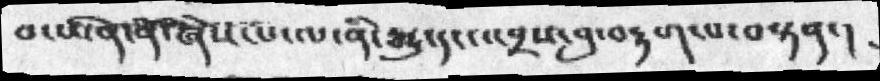པ་ཡིན་ནོ་ཞེས་པ་ལ་ནི་རྒྱུ་དང་འབྲས་བུ་བརྟག་པ་བསྟན་།
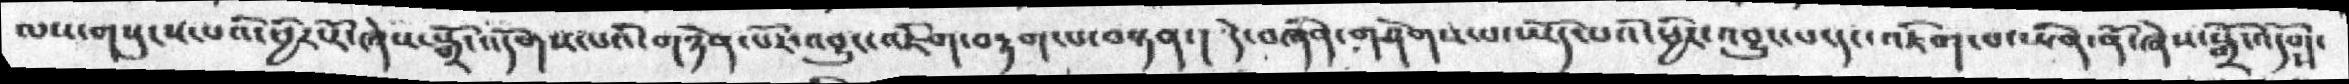ལས་གསུངས་པའོ་ཕྱིར་རོ་ཞེས་སྒྲོ་འདོགས་པའི་གཉེན་པོར་འབྱུང་འཇིག་བརྟག་པ་བསྟན་།  དེ་བཞིན་གཤེགས་པ་ཡོད་པའི་ཕྱིར་འབྱུང་པ་དང་འཇིག་པ་ཡིན་ནོ་ཞེས་སྒྲོ་འདོགས་
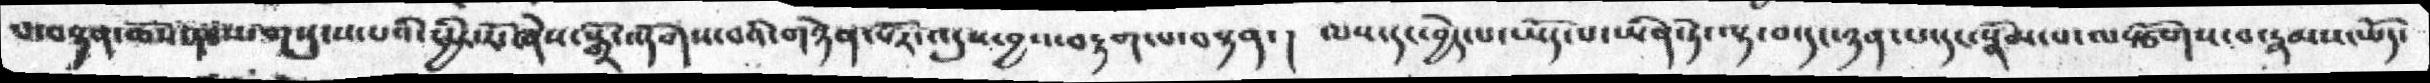པ་བསྟན་ཆོས་དངོས་གསུངས་པའི་ཕྱིར་རོ་ཞེས་སྒྲོ་འདོགས་པའི་གཉེན་པོར་འདུས་བྱས་བརྟག་པ་བསྟན་།   ལས་དང་བྱེད་པ་ཡོད་པ་ཡིན་ཏེ་ལྟ་བ་དང་ཉན་པ་དང་སྣོམ་པ་ལསྩོགས་བ་རྣམས་ཆོད་
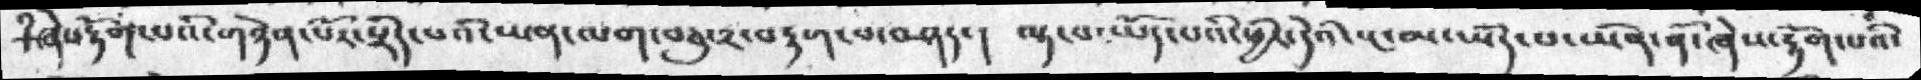དཾ་ཞེས་རྟོག་པའི་གཉེན་པོར་སྲིད་པའི་ཡན་ལག་བཅུ་༢་བརྟག་པ་བཤད་ །  ལྟ་བ་ཡོད་པའི་ཕྱིར་དེའི་སྔ་མ་ཡོད་པ་ཡིན་ནོ་ཞེས་རྟོག་པའི་
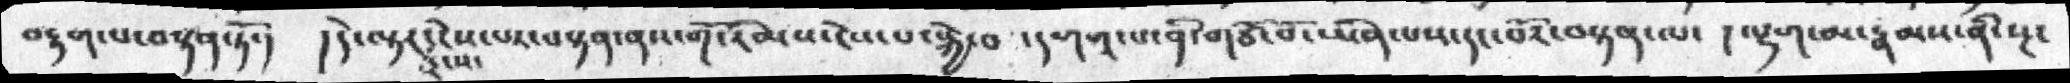བརྟག་པ་བསྟན་ཏོ་།   ། དེ་ལྟར་དྲངས་ངེས་པར་བསྟན་ནས་གོ་རིམས་ངེས་པ་སྐྱེ་བ་  དགག་པ་ནི་གཙོ་བོ་ཡིན་པས་དང་པོར་བསྟན་ལ་  ། ལྷག་མ་རྣམས་ནི་སྔ་
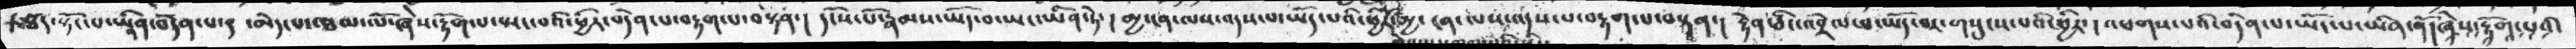།ཐཾད་སྟོང་པ་ཡིན་ན་བདེན་པ་། ་མེད་པ་ལྕམ་ལོ་ཞེས་རྟོག་པ་ཡང་པའི་ཕྱིར་བདེན་པ་བརྟག་པ་བསྟན་།  དངོས་པོ་རྣམས་ཡོད་བ་ཡང་ཡིན་ཏེ་།  མྱ་ངན་ལས་འདས་པ་ཡོད་པའི་ཕྱིརཾ་མྱ་ངན་ལས་འདས་པ་བརྟག་པ་བསྟན་། རྟེན་ཅིང་འབྲེལ་བ་ཡོད་པར་གསུངས་པའི་ཕྱིར་། འཕགས་པའི་བདེན་པ་ཡོད་པ་ཡིན་ནོ་ཞེས་རྟོག་པའི་
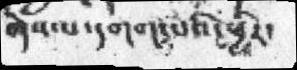ཞེས་པ་དགག་པའི་ཕྱིར་
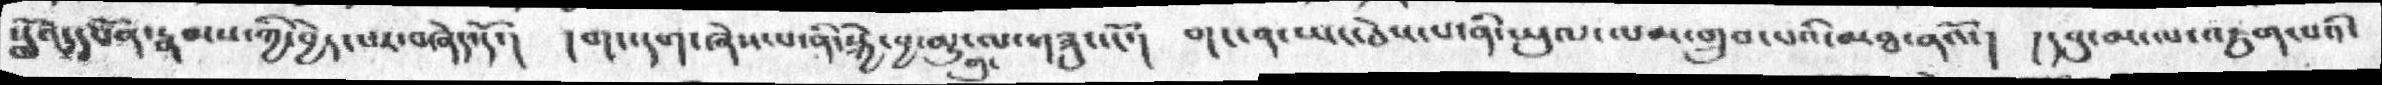སློབ་དཔོན་རྣམས་ཀྱི་བྱེད་པར་བཞེད་དོ་།  །གང་དག་ཞེས་པ་ནི་སྐྱེ་བྱ་མྱུ་གུ་ལ་གཟུང་ངོ་།  གང་ན་ཡང་ཅེས་པ་ནི་ཡུལ་ལམ་གྲུབ་པའི་མཐ་ནའོ་།   །དབུ་མ་ལ་འཇུག་པའི་
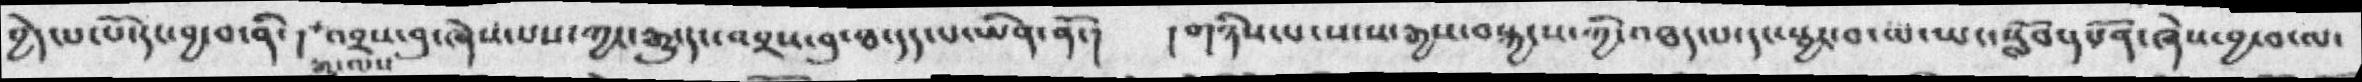བྱེད་པ་པོ་དང་བྱ་བ་ནི་།   རྒྱུ་ལས་འབྲས་བུ་ཞེས་པས་ཀྱང་རྒྱུ་དང་འབྲས་བུ་ཐ་དད་པ་ཡིན་ནོ་།  །གཉིས་པ་སངས་རྒྱས་བསྐྱངས་ཀྱི་འཐད་པ་དང་སྦྱར་བ་ལ་ཡང་སློབ་དཔོན་ཞེས་བྱ་བ་ལ་
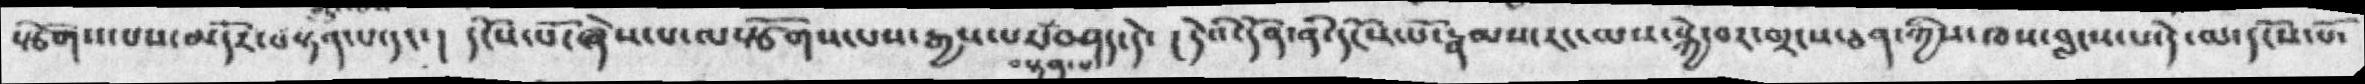སྩོགས་པས་མདོར་བསྟན་པ་དང་།  དངོས་པོ་ཞེས་ལསྩོགས་པས་རྒྱས་པར་བསྟན་པ་བཤད་དེ་།  །དེའི་དོན་ནི་དངོས་པོ་རྣམས་རང་ལས་སྐྱེ་བར་གྲངས་ཅན་ཀྱིས་ཁས་བླངས་པ་དེ་ལ་དངོས་པོ་
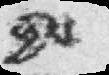ཕྱིཔ
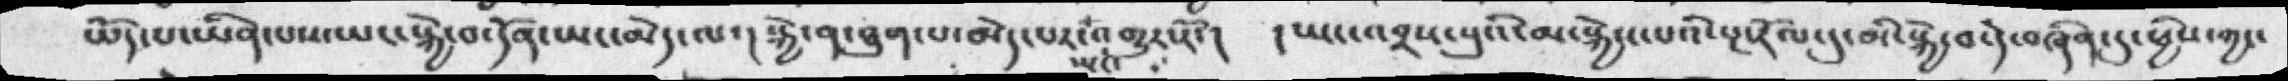ཡོད་པ་ཡིན་པས་ཡང་སྐྱེ་བ་དོན་ཡང་མེད་ལ་།  སྐྱེ་ན་ཐུག་པ་མེད་པར་ཡང་འགྱུར་རོ་།  །ཡང་འབྲས་བུའི་མ་སྐྱེས་པའི་སྔ་རོལ་དུ་མི་སྐྱེ་བ་དེ་བཞིན་དུ་ཕྱིས་ཀྱང་
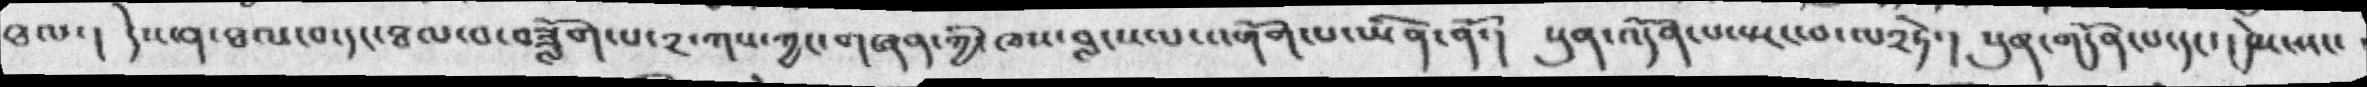ཐལ་།  དེས་ན་ཐལ་བ་དང་ཐལ་བ་བཟློག་པ་༢་ཀས་ཀྱང་གཞན་ཀྱི་ཁས་བླངས་པ་འགོག་པ་ཡིན་ནོ་།  སུན་འདོན་པ་སྤང་བ་ལ༢ཏེ། སུན་གདོན་པ་དང་། དེས་ཤང་
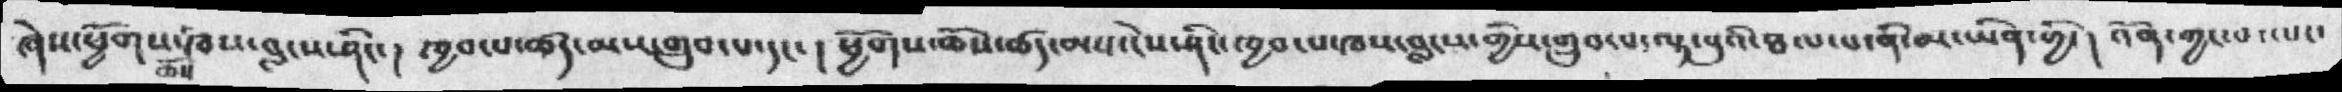ཞེས་ཕྱོགས་ཆོས་ཁས་བླངས་ཤིང་།  ཁྱབ་པ་ཚད་མས་གྲུབ་པ་དང་།   ཕྱོགས་ཆོས་ཚད་ངེས་ཤིང་ཁྱབ་པ་ཁས་བླངས་གྱིས་གྲུབ་པ་ལྟ་བུའི་ཐལ་པ་ནི་མ་ཡིན་གྱི་།  འོན་ཀྱང་བ་ལང་
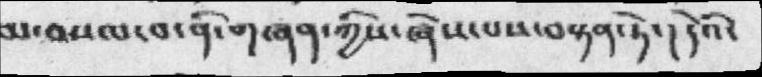མ་བསལ་བ་ནི་གཞན་ཀྱིས་ཞེས་པས་བསྟན་ཏེ་། དེའི་
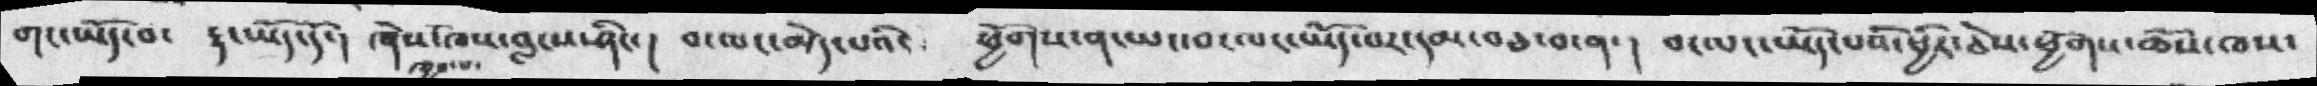གང་ཡོད་བ་  རྟ་ཡོད་དོ་།  ཞེས་ཁྱབ་པ་ཁས་བླངས་ཤིང་།  བ་ལང་མེད་པའི་  ཕྱོགས་ན་ཡང་བ་ལང་ཡོད་པར་དམ་བཅ་བ་ན་།  བ་ལང་ཡོད་པའི་ཕྱིར་ཅེས་ཕྱོགས་ཆོས་ཁས་
